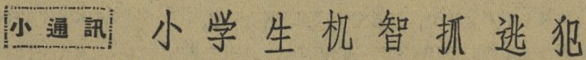小 通 訊 小 学 生 机 智 抓 逃 犯
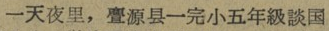一天夜里，亹源县一完小五年級談国
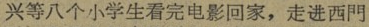兴等八个小学生看完电影回家，走进西門
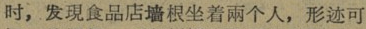时，发現食品店墙根坐着兩个人，形迹可
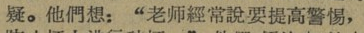疑。他們想：“老师經常說要提高警惕，
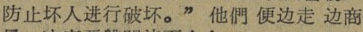防止坏人进行破坏。”他們 便边走 边商
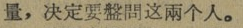量，决定要盘問这兩个人。
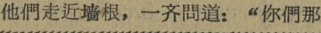他們走近墙根，一齐問道：“你們那
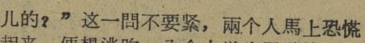儿的？”这一問不要紧，兩个人馬上恐慌
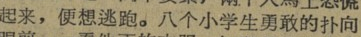起来，便想逃跑。八个小学生勇敢的扑向
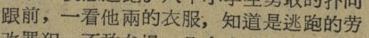跟前，一看他兩的衣服，知道是逃跑的劳
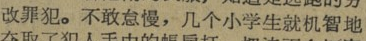改罪犯。不敢怠慢，几个小学生就机智地
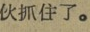伙抓住了。
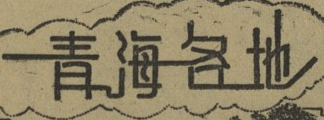青海各地
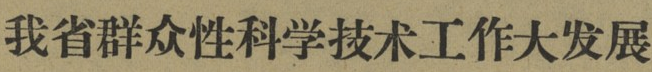我省群众性科学技术工作大发展
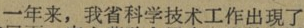一年来，我省科学技术工作出現了
